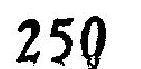250
